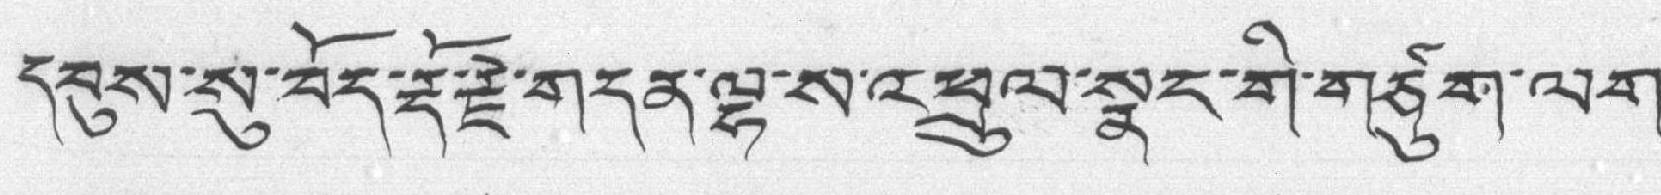དབུས་སུ་བོད་རྡོ་རྗེ་གདན་ལྷ་ས་འཕྲུལ་སྣང་གི་གཙུག་ལག་
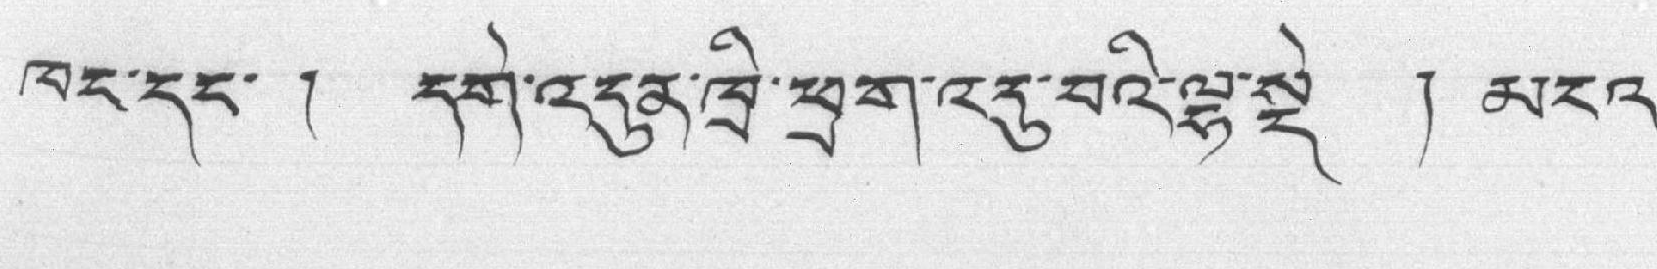ཁང་དང་ ། དགེ་འདུན་ཁྲི་ཕྲག་འདུ་བའི་ལྷ་སྡེ ། མངའ་
